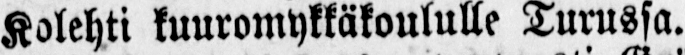Kolehti kuuromykkäkoululle Turussa.
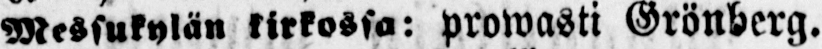Messukylän kirkossa: prowasti Grönberg.
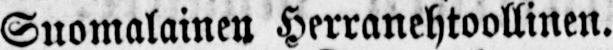Suomalainen Herranehtoollinen.
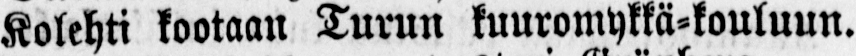Kolehti kootaan Turun kuuromykkä-kouluun.
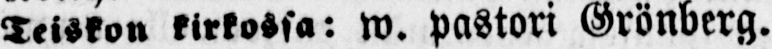Teiskon kirkossa: w. pastori Grönberg.
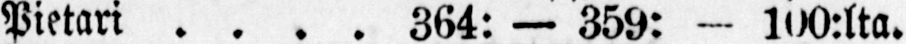Pietari . . . . 364: — 359: - 100:lta.
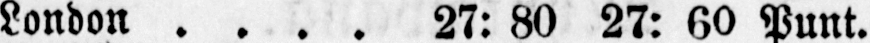London . . . . 27: 80 27: 60 Punt.
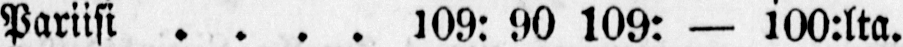Pariisi . . . . 109: 90 109: — 100:lta.
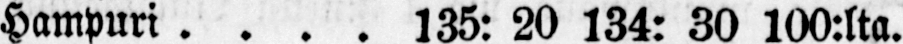Hampuri . . . . 135: 20 134: 30 100:lta.
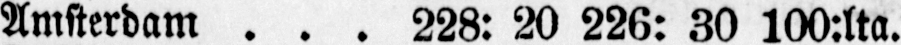Amsterdam . . . 228: 20 226: 30 100:lta.
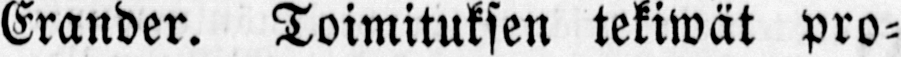Erander. Toimituksen tekiwät pro-
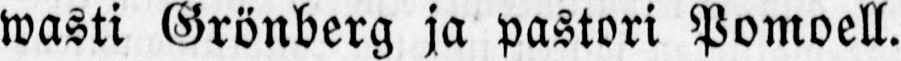wasti Grönberg ja pastori Pomoell.
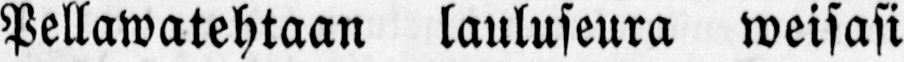Pellawatehtaan lauluseura weisasi
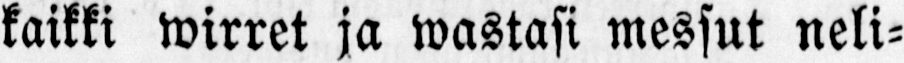kaikki wirret ja wastasi messut neli-
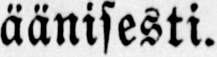äänisesti.
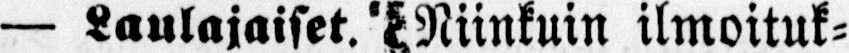— Laulajaiset. Niinkuin ilmoituk-
